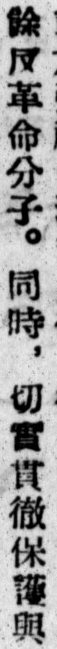餘反革命分子。同時，切實貫徹保護與
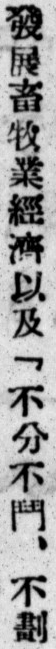發展畜牧業經濟以及「不分不鬥、不劃
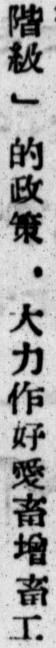階級」 的政策 ，大力作好愛畜增畜工
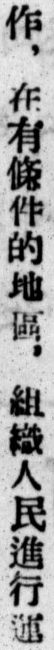作，在有條件的地區，組織人民進行運
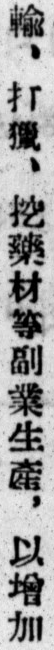輸、打獵、挖藥材等副業生產，以增加
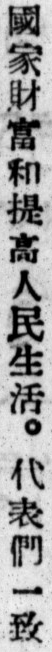國家財富和提高人民生活。代表們一致
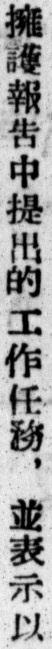擁護報告中提出的工作任務，並表示以
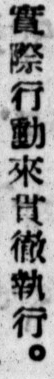實際行動來貫徹執行。
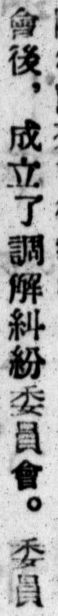會後，成立了調解糾紛委員會。委員
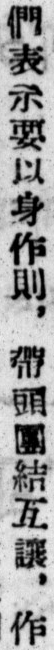們表示要以身作則，帶頭團結互讓，作
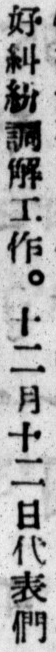好糾紛調解工作。十二月十二日代表們
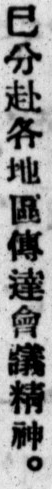已分赴各地區傳達會議精神。
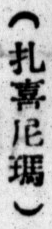（扎喜尼瑪）
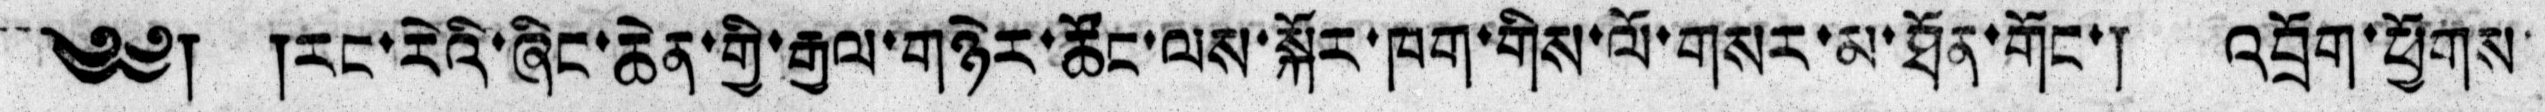༄༅། །རང་རེའི་ཞིང་ཆེན་གྱི་རྒྱལ་གཉེར་ཚོང་ལས་སྐོར་ཁག་གིས་ལོ་གསར་མ་ཐོན་གོང་། འབྲོག་ཕྱོགས་
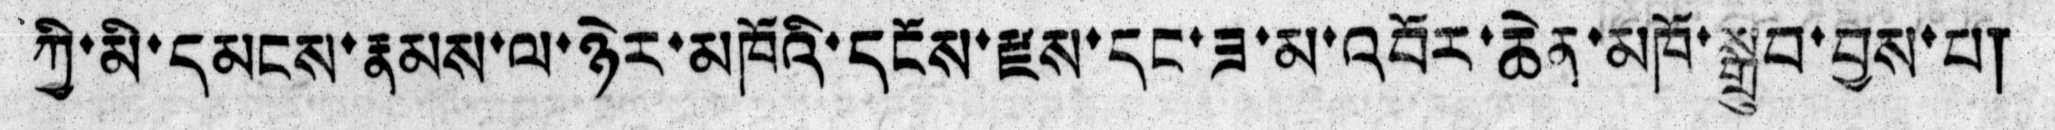ཀྱི་མི་དམངས་རྣམས་ལ་ཉེར་མཁོའི་དངོས་རྫས་དང་ཟ་མ་འབོར་ཆེན་མཁོ་སྒྲུབ་བྱས་པ།
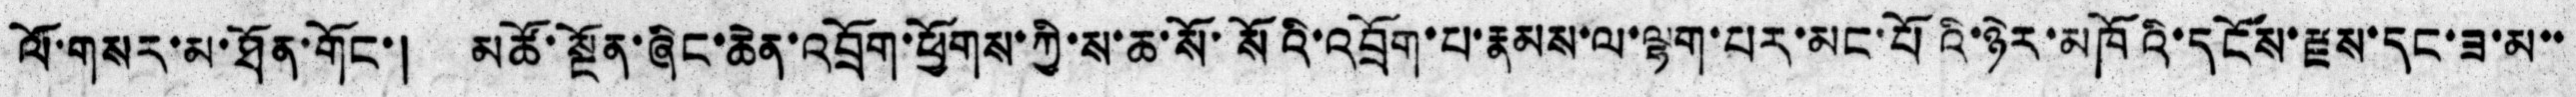ལོ་གསར་མ་ཐོན་གོང་། མཚོ་སྔོན་ཞིང་ཆེན་འབྲོག་ཕྱོགས་ཀྱི་ས་ཆ་སོ་སོའི་འབྲོག་པ་རྣམས་ལ་ལྷག་པར་མང་པོའི་ཉེར་མཁོའི་དངོས་རྫས་དང་ཟ་མ་་
